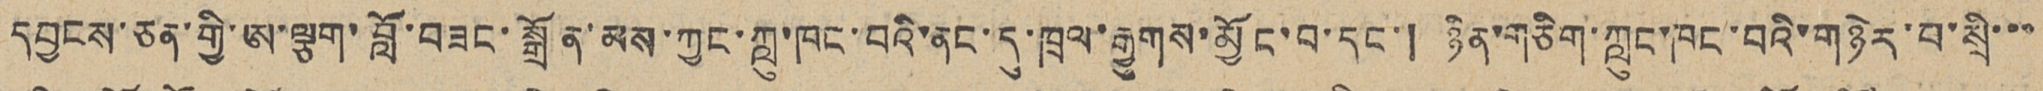དབྱངས་ཅན་གྱི་ཨ་ལྕག་བློ་བཟང་སྒྲོན་མས་ཀྱང་ཀླུ་ཁང་བའི་ནང་དུ་ཁྲལ་རྒྱུགས་མྱོང་བ་དང་། ཉིན་གཅིག་ཀླུང་ཁང་བའི་གཉེར་བ་སྲི་་་
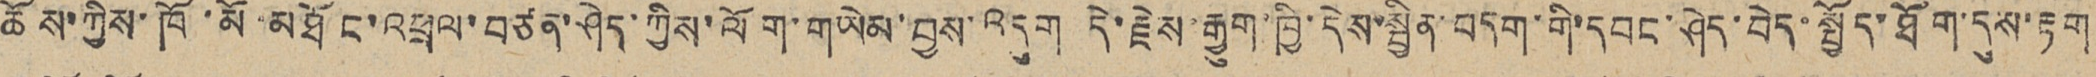ཆོས་ཀྱིས་ཁོ་མོ་མཐོང་འཕྲལ་བཙན་ཤེད་ཀྱིས་ལོག་གཡེམ་བྱས་འདུག དེ་རྗེས་རྒྱུག་ཁྱི་དེས་སྦྱིན་བདག་གི་དབང་ཤེད་བེད་སྤྱོད་ཐོག་དུས་རྟག
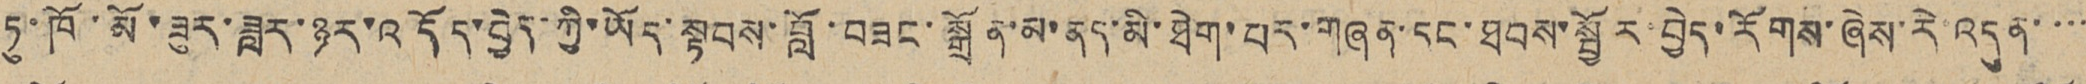ཏུ་ཁོ་མོ་ཟུར་ཟླར་ཉར་འདོད་བྱེད་ཀྱི་ཡོད་སྟབས་བློ་བཟང་སྒྲོན་མ་ནད་མི་ཐེག་པར་གཞན་དང་ཐབས་སྦྱོར་བྱེད་རོགས་ཞེས་རེ་འདུན་་་་
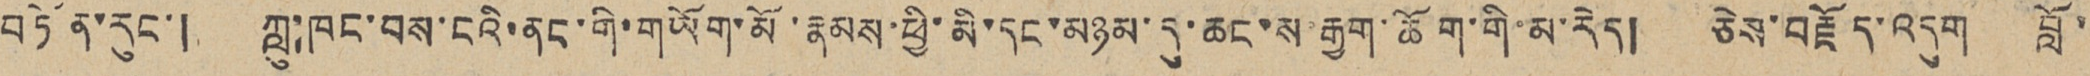བཏོན་རུང་། ཀླུ་ཁང་བས་ངའི་ནང་གི་གཡོག་མོ་རྣམས་ཕྱི་མི་དང་མཉམ་དུ་ཆང་ས་རྒྱག་ཆོག་གི་མ་རེད། ཅེས་བརྗོད་འདུག བློ་
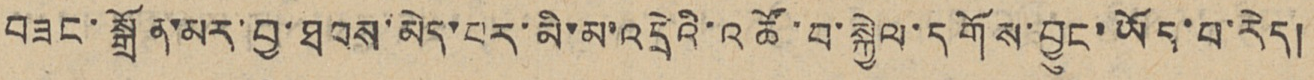བཟང་སྒྲོན་མར་བྱ་ཐབས་མེད་པར་མི་མ་འདྲེའི་འཚོ་བ་སྐྱེལ་དགོས་བྱུང་ཡོད་པ་རེད།
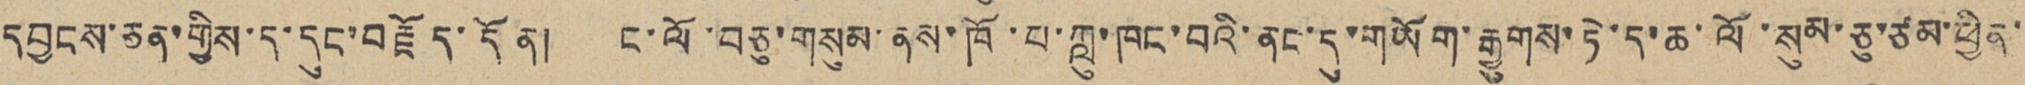དབྱངས་ཅན་གྱིས་ད་དུང་བརྗོད་དོན། ང་ལོ་བཅུ་གསུམ་ནས་ཁོ་པ་ཀླུ་ཁང་བའི་ནང་དུ་གཡོག་རྒྱུགས་ཏེ་ད་ཆ་ལོ་སུམ་ཅུ་ཙམ་ཕྱིན་
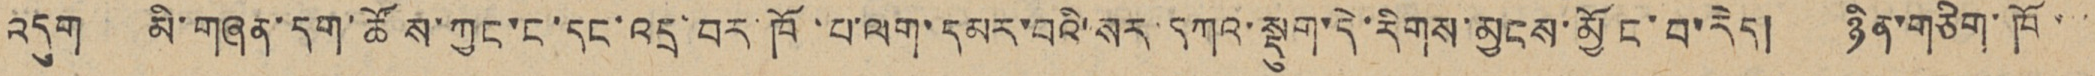འདུག མི་གཞན་དག་ཚོས་ཀྱང་ང་དང་འདྲ་བར་ཁོ་པ་ལག་དམར་བའི་སར་དཀའ་སྡུག་དེ་རིགས་མྱངས་མྱོང་བ་རེད། ཉིན་གཅིག་ཁོ་་
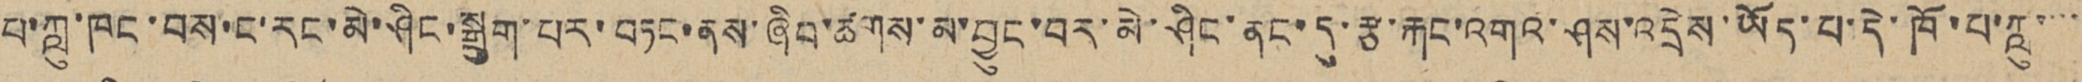པ་ཀླུ་ཁང་བས་ང་རང་མེ་ཤིང་སྒྲུག་པར་བཏང་ནས་ཞིབ་ཚགས་མ་བྱུང་བར་མེ་ཤིང་ནང་དུ་རྩ་རྐང་འགའ་ཤས་འདྲེས་ཡོད་པ་དེ་ཁོ་པ་ཀླུ་་་་
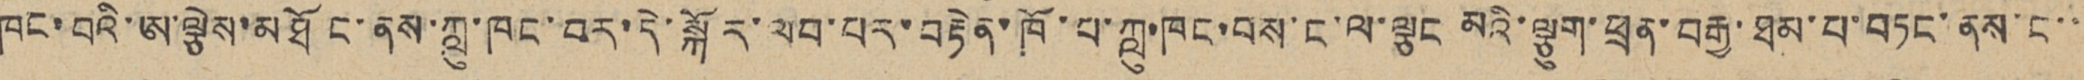ཁང་བའི་ཨ་ལྕེས་མཐོང་ནས་ཀླུ་ཁང་བར་དེ་སྐོར་ལབ་པར་བརྟེན་ཁོ་པ་ཀླུ་ཁང་བས་ང་ལ་ལྕང མའི་ལྕུག་ཕྲན་བརྒྱ་ཐམ་པ་བཏང་ནས་ང་་
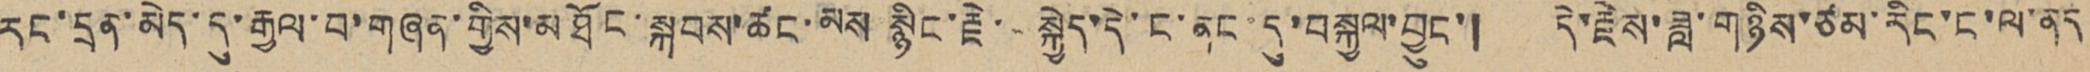རང་དྲན་མེད་དུ་རྒྱལ་བ་གཞན་གྱིས་མཐོང་སྐབས་ཚང་མས སྙིང་རྗེ་ སྐྱེད་དེ་ང་ནང་དུ་བསྐྱལ་བྱུང་། དེ་རྗེས་ཟླ་གཉིས་ཙམ་རིང་ང་ལ་ནད
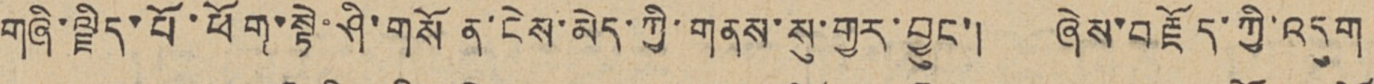གཞི་ལྗིད་པོ་ཕོག་སྟེ་ཤི་གསོན་ངེས་མེད་ཀྱི་གནས་སུ་གྱར་བྱུང་། ཞེས་བརྗོད་ཀྱི་འདུག
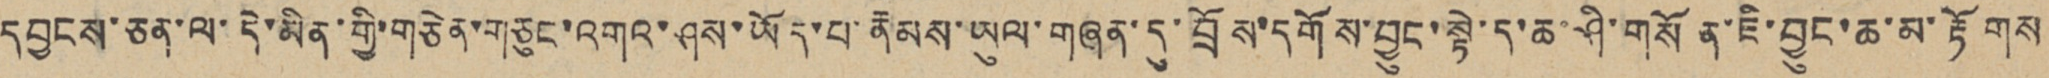དབྱངས་ཅན་ལ་དེ་མིན་གྱི་གཅེན་གཅུང་འགའ་ཤས་ཡོད་པ་རྣམས་ཡུལ་གཞན་དུ་བྲོས་དགོས་བྱུང་སྟེ་ད་ཆ་ཤི་གསོན་ཇི་བྱུང་ཆ་མ་རྟོགས
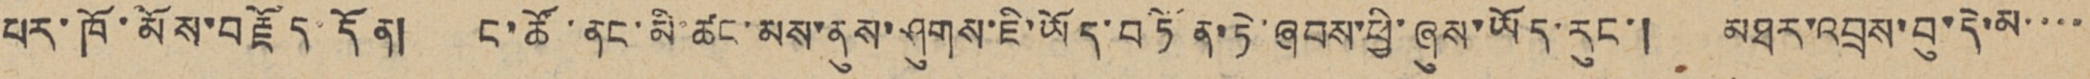པར་ཁོ་མོས་བརྗོད་དོན། ང་ཚོ་ནང་མི་ཚང་མས་ནུས་ཤུགས་ཇི་ཡོད་བཏོན་ཏེ་ཞབས་ཕྱི་ཞུས་ཡོད་རུང་། མཐར་འབྲས་བུ་དེ་མ་་་་
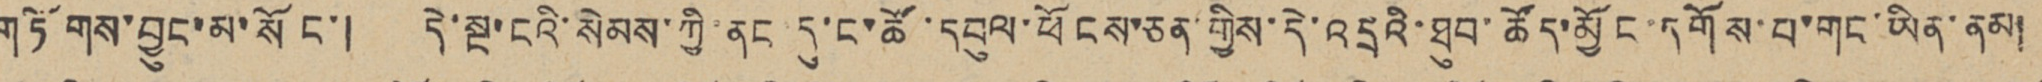གཏོགས་བྱུང་མ་སོང་། དེ་སྔ་ངའི་སེམས་ཀྱི་ནང་དུ་ང་ཚོ་དབུལ་ཕོངས་ཅན་གྱིས་དེ་འདྲའི་ཐུབ་ཚོད་མྱོང་དགོས་པ་གང་ཡིན་ནམ།
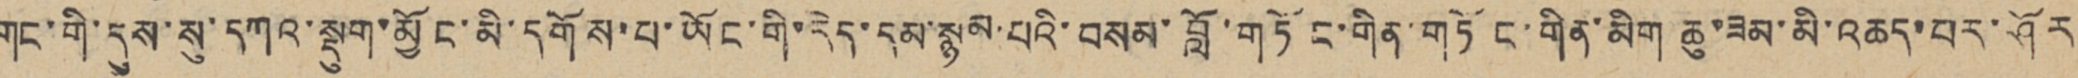གང་གི་དུས་སུ་དཀའ་སྡུག་མྱོང་མི་དགོས་པ་ཡོང་གི་རེད་དམ་སྙམ་པའི་བསམ་བློ་གཏོང་གིན་གཏོང་གིན་མིག ཆུ་ཟམ་མི་འཆད་པར་ཤོར
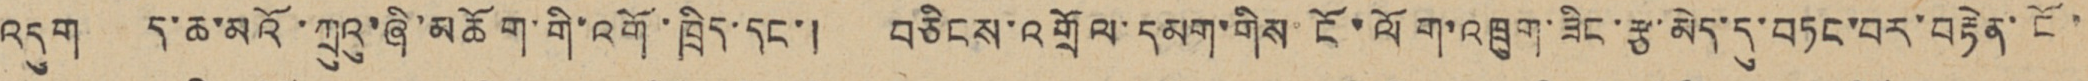འདུག ད་ཆ་མའོ་ཀྲུའུ་ཞི་མཆོག་གི་འགོ་ཁྲིད་དང་། བཅིངས་འགྲོལ་དམག་གིས ངོ་ལོག་འཁྲུག་ཟིང་རྩ་མེད་དུ་བཏང་བར་བརྟེན་ངོ་
